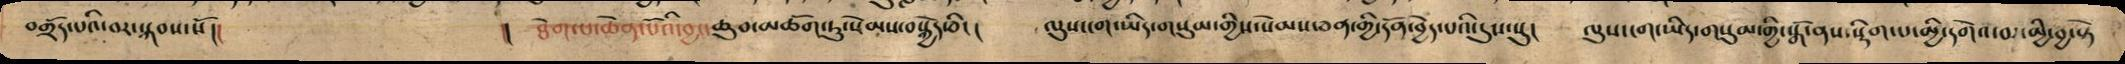བགྲོད་པའི་བར་སྐབས་སོ།། །། ཐེག་པ་ཆེན་པོའི་བྱང་ཆུབ་མཆོག་ཏུ་སེམས་བསྐྱེད་ཅིང། ལུས་ངག་ཡིད་གསུམ་གྱིས་སེམས་ཅན་གྱི་དོན་བྱེད་པའི་དུས་སུ། ལུས་ངག་ཡིད་གསུམ་གྱི་སྒོ་ནས་སྡིག་པ་མྱི་དགེ་བར་མྱི་བྱ་སྟེ
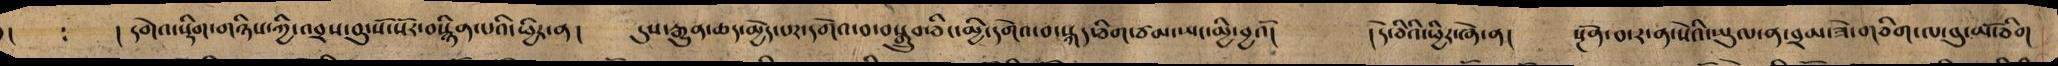། ༴ ། དགེའ་སྡིག་གཉིས་ཀྱི་འབྲས་བུ་སོ་སོར་བསྙིན་པའི་ཕྱིར་ན། དུས་རྒྱུན་ཆད་མྱེད་པར་དགེའ་བ་བསྒྲུབ་ཅིང་མྱི་དགེའ་བ་སྐད་ཅིག་ཙམ་ཡང་མྱི་མྱའོ། །དེ་ཅིའི་ཕྱིར་ཞེ་ན། སྔོན་བ་ར་ན་སེའི་ཡུལ་ན་བྲམ་ཟེ་གཅིག་ལ་བུ་མོ་ཅིག
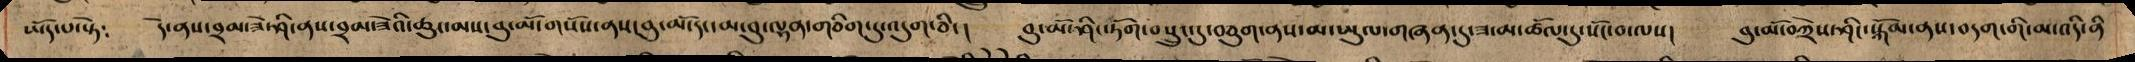ཡོད་པ་སྟེ༴ དེ་ནས་བྲམ་ཟེ་ཤི་ནས་བྲམ་ཟེའི་ཆུང་མས་བུ་མོ་གསོས་ནས་བུ་མོ་དང་མ་བུ་ལྷན་གཅིག་དུ་འདུག་ཅིང། བུ་མོ་ཤིང་ཏོག་བསྲུང་དུ་བཅུག་ནས་མ་ཡུལ་གཞན་དུ་ཟ་མ་ཚོལ་དུ་སོང་བ་ལས། བུ་མོ་བཀྲེས་ཤིང་སྐོམ་ནས་བདག་གི་མ་འདི་ནི
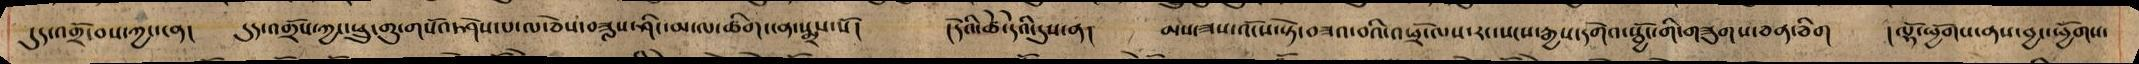དུད་འགྲོ་བས་ཀྱང་ངན། དུད་འགྲོས་ཀྱང་ཕྲུ་གུ་གསོའ་ཤེས་པ་ལ་ཅེས་བཟླས་ཤིང་མ་ལ་ཚིག་ངན་སྨྲས་སོ། །དེའི་ཚེ་དེའི་དུས་ན། མས་ཟས་འོངས་སྟེ་བཟའ་བའི་འཕྲོ་ལས་རང་སངས་རྒྱས་དགེའ་སྦྱོང་གི་གཟུགས་ཅན་ཅིག །ལྷོ་ཕྱོགས་ནས་བྱང་ཕྱོགས་
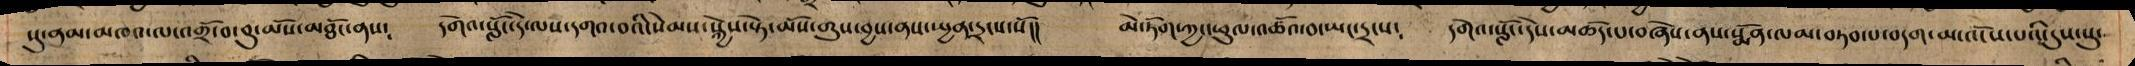སུ་ནམ་མཁའ་ལ་འགྲོ་བ་བུ་མོས་མཐོང་ནས༴ དགེའ་སློང་དེ་ལས་དགའ་བའི་སེམས་སྐྱེས་སྟེ་མོས་གུས་བྱས་ནས་སྤྱན་དྲངས་སོ།། མེ་ཏོག་ཀྱང་ཕུལ་འཚོའ་བ་ཡང་དྲངས༴ དགེའ་སློང་དེས་མཆོད་པ་བཞེས་ནས་སྨོན་ལམ་བཏབ་པ་བདག་མ་འོངས་པའི་དུས་སུ་
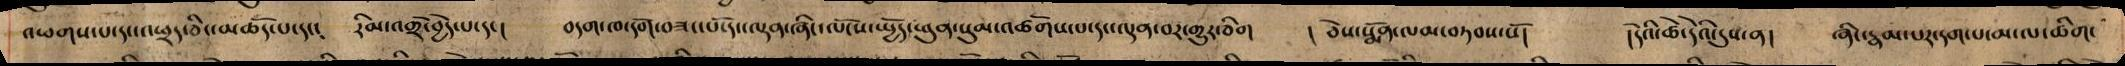འཕགས་པ་དང་འཕྲད་ཅིང་མཆོད་པ་དང༴ རིམ་འགྲོ་བྱེད་པ་དང། བདག་ཁ་དགེ་བཟང་པོ་དང་ལྡན་ཞིང་ལོངས་སྤྱོད་ཕུན་སུམ་འཚོགས་པ་དང་ལྡན་བར་གྱུར་ཅིག ། ཅེས་སྨོན་ལམ་བཏབས་སོ། །དེའི་ཚེ་དེའི་དུས་ན། ཞིང་རྣམ་པར་དག་པ་མ་ལ་ཚིག་
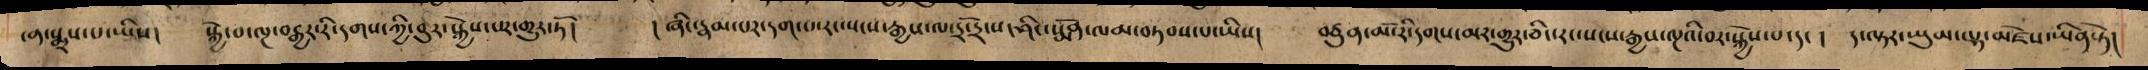ངན་སྨྲས་པ་ཡིས། སྐྱེ་བ་ལྔ་བརྒྱར་རི་དགས་ཀྱི་བུར་སྐྱེས་པར་གྱུར་ཏོ། །ཞིང་རྣམ་པར་དག་པར་སངས་རྒྱས་ལ་དྲ་དྲོ་ས་ཤིང་སྨོན་ལམ་བཏབ་པ་ཡིས། བཙུན་པོ་རི་དགས་མར་གྱུར་ཅིང་རང་སངས་རྒྱས་ལྔའི་བར་སྐྱེས་པ་དང། ད་ལྟར་ཡུམ་ལྷ་མཛེས་ཡིན་སྟེ།
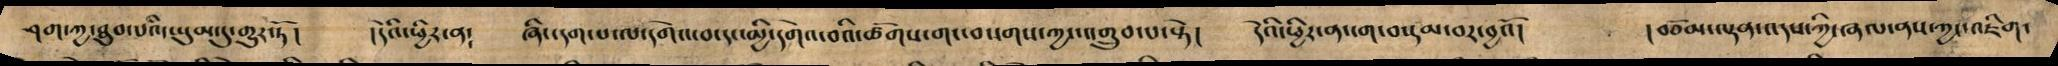ཤག་ཀྱ་ཐུབ་པའི་ཡུམ་དུ་གྱུར་ཏོ། །དེའི་ཕྱིར་ན༴ ཞིང་དག་པ་ལ་དགེའ་བ་དང་མྱི་དགེའ་བའི་ཚོགས་གང་བསགས་ཀྱང་འགྲུབ་པ་སྟེ། དེའི་ཕྱིར་ན་ངག་བསྡམ་བར་བྱའོ། །བཅོམ་ལྡན་འདས་ཀྱི་ཞལ་ནས་ཀྱང་འཇིག་
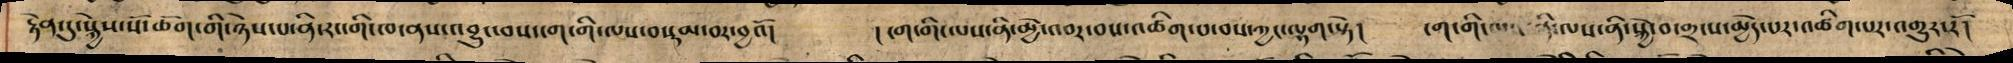རྟེན་དུ་སྐྱེས་སོ་ཆོག་གི་ཉེས་པ་ནི་རང་གི་ཁ་ནས་འབྱུང་བས་ངག་གི་ལས་བསྡམ་བར་བྱའོ། །ངག་གི་ལས་ནི་མྱི་འབར་བས་འཚིག་པ་བས་ཀྱང་ལྷག་སྟེ། ངག་གི་ལས་ནི་ལས་ནི་སྐྱེ་བ་གྲངས་མྱེད་པར་འཚིགས་པར་འགྱུར་རོ།
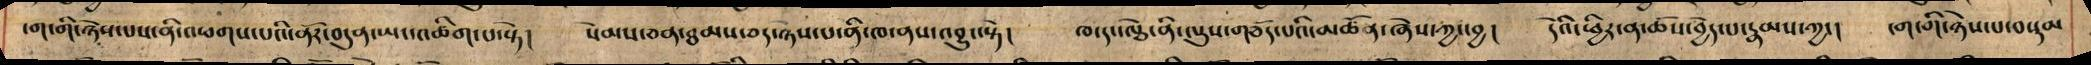ངག་གི་ཉེས་པས་ནི་འཕགས་པའི་ནོར་བདུན་ཡང་འཚིག་པ་སྟེ། སེམས་ཅན་ཐམས་ཅད་ཉེས་པ་ནི་ཁ་ནས་འབྱུང་སྟེ། ཁ་དང་ལྕེ་ནི་ལུས་གཅོད་པའི་མཚོན་ཞེས་ཀྱང་བྱ། དེའི་ཕྱིར་ན་ཆོས་བྱེད་པ་རྣམས་ཀྱང། ངག་གི་ཉེས་པ་བསྡམ
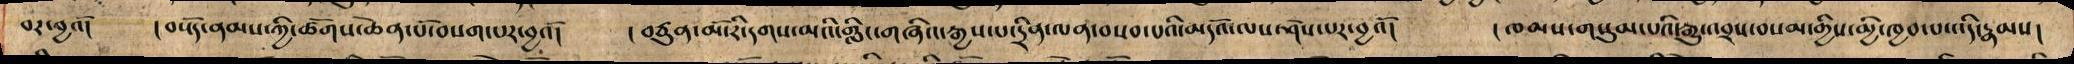བར་བྱའོ། །བསོད་ནམས་ཀྱི་ཚོགས་ཆེན་པོ་བསག་པར་བྱའོ། །བཙུན་མོ་རི་དགས་མའི་གླིང་གཞིའ་རྒྱས་པ་དྲི་ལན་བསབ་པའི་མདོའ་ལས་ཤེས་པར་བྱའོ། ཁམས་གསུམ་པའི་རྒྱུ་འབྲས་བསམ་གྱིས་མྱི་ཁྱབ་པ་འདི་རྣམས།
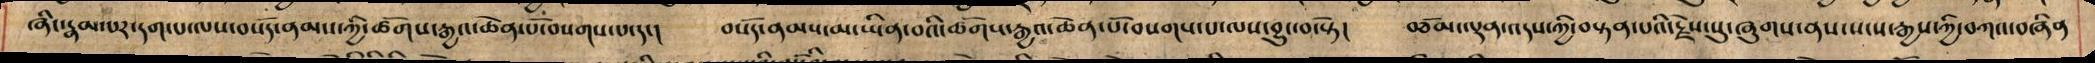ཞིང་རྣམ་པར་དག་པ་ལས་བསོད་ནམས་ཀྱི་ཚོགས་རྒྱའ་ཆེན་པོ་བསགས་པ་དང། བསོད་ནམས་མ་ཡིན་བའི་ཚོགས་རྒྱའ་ཆེན་པོ་བསགས་པ་ལས་བྱུང་བ་སྟེ། བཅོམ་ལྡན་འདས་ཀྱི་བསྟན་པའི་རྗེས་སུ་ཞུགས་ནས་སངས་རྒྱས་ཀྱི་བཀའ་བཞིན
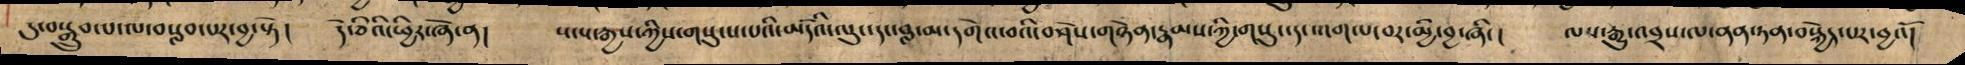དུ་བསྒྲུབ་པ་ལ་བསླབ་པར་བྱ་སྟེ། དེ་ཅིའི་ཕྱིར་ཞེ་ན། སངས་རྒྱས་ཀྱིས་གསུངས་པའི་མདོའི་ལུང་དང་བླ་མ་དགེའ་བའི་བཤེས་གཉེན་རྣམས་ཀྱི་གསུང་དང་འགལ་བར་མྱི་བྱ་ཞིང། ལས་རྒྱུ་འབྲས་ལ་ནན་ཏན་བསྐྱེད་པར་བྱའོ།
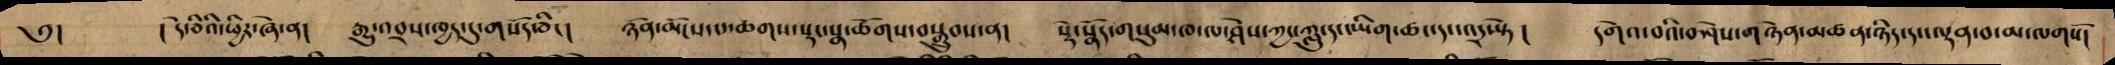༅། ། དེ་ཅིའི་ཕྱིར་ཞེ་ན། རྒྱུ་འབྲས་ཁྱད་དུ་གསོད་ཅིང། ཉོན་མོངས་པ་ཆགས་སྡང་སྣ་ཚོགས་བསྒྲུབས་ན། སྡེ་སྣོད་གསུམ་ཁ་ལ་ཤེས་ཀྱང་ཀླུ་དང་ཡིག་ཚང་དང་འདྲ་སྟེ། དགེའ་བའི་བཤེས་གཉེན་མཚན་ཉིད་དང་ལྡན་བ་མ་ལགསོ།
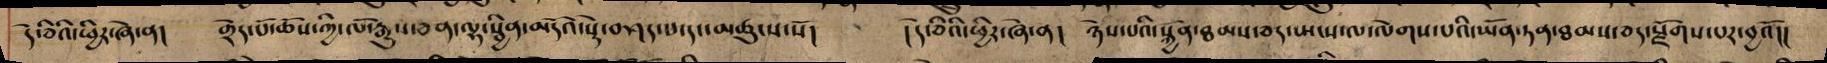དེ་ཅིའི་ཕྱིར་ཞེ་ན། གྲོད་པོ་ཆོས་ཀྱི་ལོ་རྒྱུས་ཅན་ལྷ་སྦྱིན་མདོའ་སྡེ་བཤད་པ་དང་མཚུངས་སོ། །དེ་ཅིའི་ཕྱིར་ཞེ་ན། ཉེས་པའི་སྐྱོན་ཐམས་ཅད་ཡངས་ལ་ལེགས་པའི་ཡོན་ཏན་ཐམས་ཅད་སྫོགས་པར་བྱའོ།།
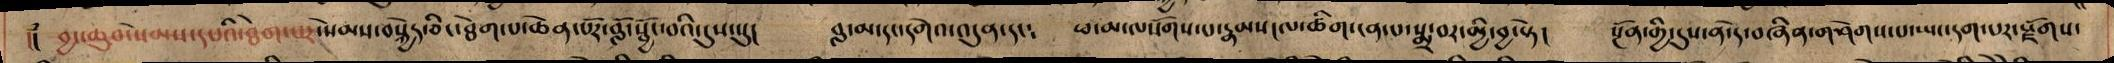།། བྱང་ཆུབ་སེམས་དཔའི་ཐེག་པར་སེམས་བསྐྱེད་ཅིང་ཐེག་པ་ཆེན་པོར་བློ་སྦྱོང་བའི་དུས་སུ། བླ་མ་དང་དགེའ་འདུན་དང༴ ཕ་མ་ལསོགས་པ་རྣམས་ལ་ཚཱིག་ངན་པ་སྨྲ་བར་མྱི་བྱ་སྟེ། སྔོན་གྱི་དུས་ན་དེ་བཞིན་གཤེགས་པ་ཡང་དག་པར་སྫོགས་
